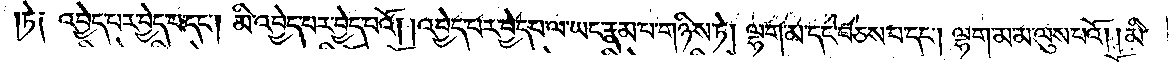ཏེ༑ འབྱེད་པར་བྱེད་པ་དང༌། མི་འབྱེད་པར་བྱེད་པའོ། །འབྱེད་པར་བྱེད་པ་ལ་ཡང་རྣམ་པ་གཉིས་ཏེ། ལྷག་མ་དང་བཅས་པ་དང༌། ལྷག་མ་མ་ལུས་པའོ། །མི་
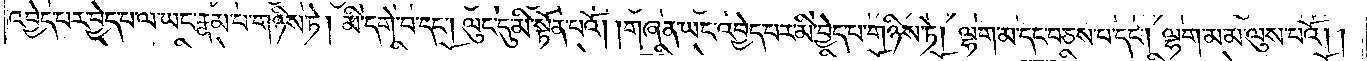འབྱེད་པར་བྱེད་པ་ལ་ཡང་རྣམ་པ་གཉིས་ཏེ། མི་དགེ་བ་དང༌། ལུང་དུ་མི་སྟོན་པའོ། །གཞན་ཡང་འབྱེད་པར་མི་བྱེད་པ་གཉིས་ཏེ། ལྷག་མ་དང་བཅས་པ་དང༌། ལྷག་མ་མ་ལུས་པའོ། །
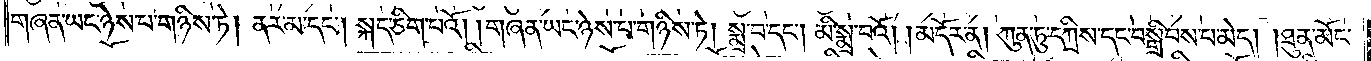གཞན་ཡང་ཉེས་པ་གཉིས་ཏེ། ནར་མ་དང༌། སྐད་ཅིག་པའོ། །གཞན་ཡང་ཉེས་པ་གཉིས་ཏེ། སྨྲ་བ་དང༌། མི་སྨྲ་བའོ། །མདོར་ན། ཀུན་ཏུ་དཀྲིས་དང་བསྒྲིབས་པ་མེད། །ཐུན་མོང་
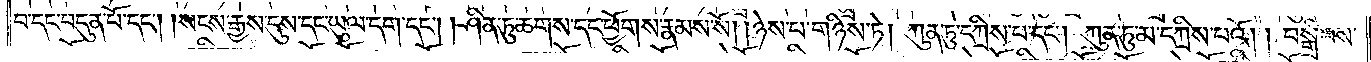བ་དང་བདུན་པོ་དང༌། །སངས་རྒྱས་དུས་དང་ཡུལ་དག་དང༌། །ཤིན་ཏུ་ཆགས་དང་ཕྱོགས་རྣམས་སོ། །ཉེས་པ་གཉིས་ཏེ། ཀུན་ཏུ་དཀྲིས་པ་དང༌། ཀུན་ཏུ་མ་དཀྲིས་པའོ། །བསྒྲིབས་
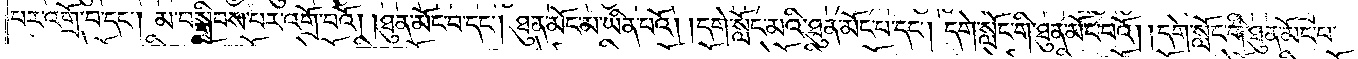པར་འགྲོ་བ་དང༌། མ་བསྒྲིབས་པར་འགྲོ་བའོ། །ཐུན་མོང་བ་དང༌། ཐུན་མོང་མ་ཡིན་པའོ། །དགེ་སློང་མའི་ཐུན་མོང་བ་དང༌། དགེ་སློང་གི་ཐུན་མོང་བའོ། །དགེ་སློང་གི་ཐུན་མོང་པ་
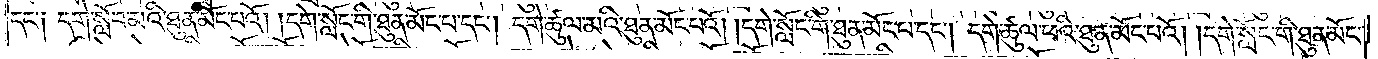དང་༑ དགེ་སློབ་མའི་ཐུན་མོང་པའོ། །དགེ་སློང་གི་ཐུན་མོང་པ་དང༌། དགེ་ཚུལ་མའི་ཐུན་མོང་པའོ། །དགེ་སློང་གི་ཐུན་མོང་པ་དང༌། དགེ་ཚུལ་ཕའི་ཐུན་མོང་པའོ། །དགེ་སློང་གི་ཐུན་མོང་
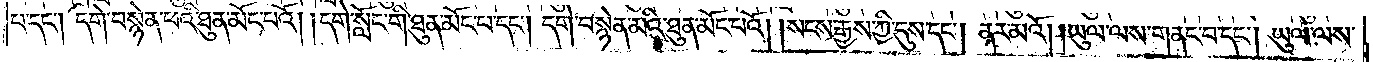པ་དང༌། དགེ་བསྙེན་ཕའི་ཐུན་མོང་པའོ། །དགེ་སློང་གི་ཐུན་མོང་པ་དང༌། དགེ་བསྙེན་མའི་ཐུན་མོང་པའོ། །སངས་རྒྱས་ཀྱི་དུས་དང༌། ནར་མའོ། །ཡུལ་ལས་གནང་བ་དང༌། ཡུལ་ལས་
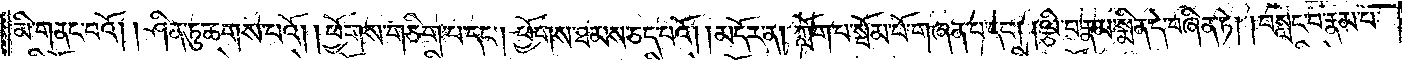མི་གནང་བའོ། །ཤིན་ཏུ་ཆགས་པའོ། །ཕྱོགས་གཅིག་པ་དང༌། ཕྱོགས་ཐམས་ཅད་པའོ། །མདོར་ན། ཀློག་པ་སྦོམ་པོ་གཞན་པ་དང༌། །ལྕི་བ་རྣམ་སྨིན་དེ་བཞིན་ཏེ། བསླང་བ་རྣམ་པ་
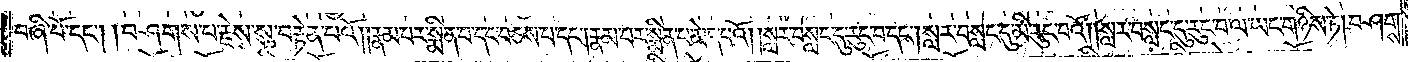བཞི་པོ་དང༌། །བཤགས་པ་རྗེས་སུ་བརྟེན་པའོ། །རྣམ་པར་སྨིན་པ་དང་བཅས་པ་དང༌། རྣམ་པར་སྨིན་པ་མེད་པའོ། །སླར་བསླང་དུ་རུང་བ་དང༌། སླར་བསླང་དུ་མི་རུང་བའོ། །སླར་བསླང་དུ་རུང་བ་ལ་ཡང་གཉིས་ཏེ། བཤགས་
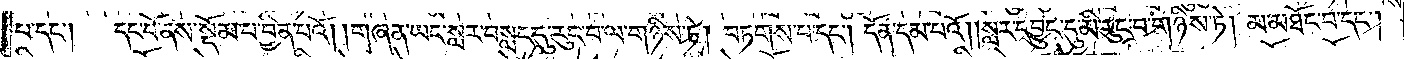པ་དང༌། དང་པོ་ནས་སྡོམ་པ་བྱིན་པའོ། །གཞན་ཡང་སླར་བསླང་དུ་རུང་བ་ལ་གཉིས་ཏེ། བཏགས་པ་དང༌། དོན་དམ་པའོ། །སླར་དབྱུང་དུ་མི་རུང་བ་གཉིས་ཏེ། མ་མཐོང་བ་དང༌།
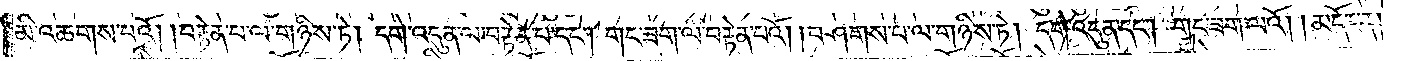མི་འཆགས་པའོ། །བརྟེན་པ་ལ་གཉིས་ཏེ། དགེ་འདུན་ལ་བརྟེན་པ་དང༌། གང་ཟག་ལ་བརྟེན་པའོ། །བཤགས་པ་ལ་གཉིས་ཏེ། དགེ་འདུན་དང༌། གང་ཟག་ལའོ། །མདོར་ན།
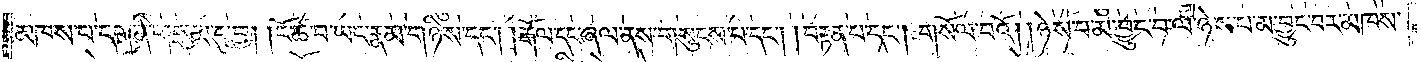མཁས་པ་དག་ནི་གསུམ་དུ་བྱ། །ངོ་ཚ་བ་ཡང་རྣམ་གཉིས་དང༌། །རྒོལ་དང་ཞལ་ནས་གསུངས་པ་དང༌། །བརྟན་པ་དང༌། གསོལ་བའོ། །ཉེས་པ་མ་བྱུང་བ་ལ་ཉེས་པ་མ་བྱུང་བར་མཁས་
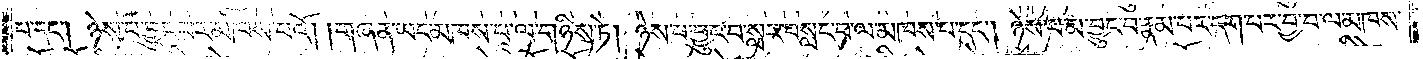པ་དང༌། ཉེས་པ་བྱུང་བར་མཁས་པའོ། །གཞན་ཡང་མཁས་པ་ལ་གཉིས་ཏེ། ཉེས་པ་བྱུང་བ་སླར་བསླང་བ་ལ་མཁས་པ་དང༌། ཉེས་པ་མ་བྱུང་བ་རྣམ་པར་དག་པར་བྱ་བ་ལ་མཁས་
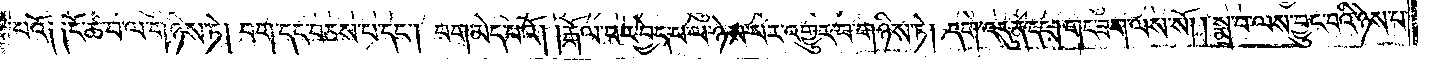པའོ༑ ༑ངོ་ཚ་བ་ལ་གཉིས་ཏེ། བག་དང་བཅས་པ་དང༌། བག་མེད་པའོ། །རྒོལ་བར་བྱེད་པ་ལ་ཉེས་པར་འགྱུར་བ་གཉིས་ཏེ། དགེ་འདུན་དང༌། གང་ཟག་ལས་སོ། །སྨྲ་བ་ལས་བྱུང་བའི་ཉེས་པ་
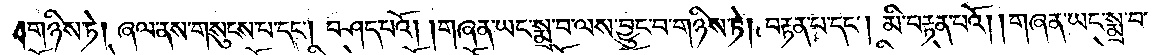གཉིས་ཏེ། ཞལ་ནས་གསུངས་པ་དང༌། བཤད་པའོ། །གཞན་ཡང་སྨྲ་བ་ལས་བྱུང་བ་གཉིས་ཏེ། བརྟན་པ་དང༌། མི་བརྟན་པའོ། །གཞན་ཡང་སྨྲ་བ་
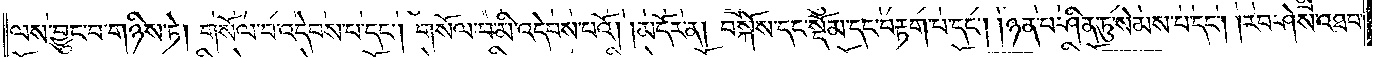ལས་བྱུང་བ་གཉིས་ཏེ། གསོལ་བ་འདེབས་པ་དང༌། གསོལ་བ་མི་འདེབས་པའོ། །མདོར་ན། བསྐོས་དང་སྡོམ་དང་བརྟག་པ་དང༌། །ཉན་པ་ཤིན་ཏུ་སེམས་པ་དང༌། །རབ་ཤེས་འཐབ་
